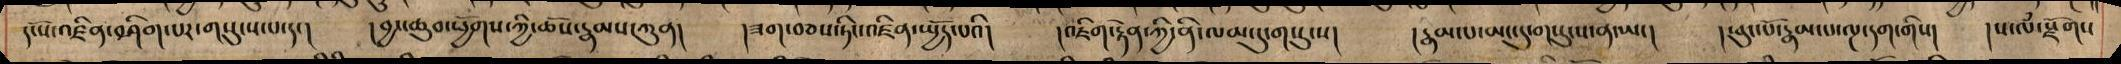དངོས་འཛིན་བཤིག་པར་གསུངས་པ་དང། །བྱང་ཆུབ་ཕྱོགས་ཀྱི་ཆོས་རྣམས་ཀུན། །ཟག་བཅས་ཏིང་འཛིན་སྤྱོད་པའི། འཇིག་རྟེན་ཀྱི་ནི་ལམ་དུ་གསུངས། །རྣམས་པ་མང་དུ་གསུངས་ན་ཡང། །ཕུང་པོ་རྣམ་པ་ལྔ་དག་གིས། ས་ལཾ་སྫོགས
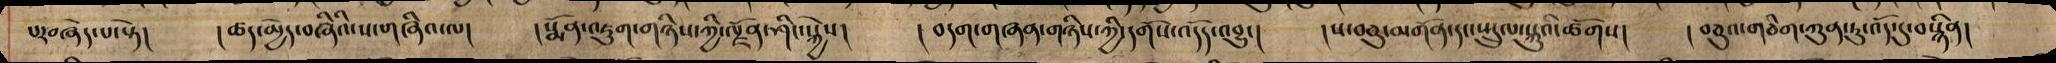པར་བཞེད་པ་སྟེ། །ཚད་མྱེད་བཞཱིའི་ས་གཞིའ་ལ། །སྨོན་འཇུག་གཉིས་ཀྱི་ལྗོན་ཤིང་སྐྱེས། །བདག་གཞན་གཉིས་ཀྱི་དགོས་འདོད་འབྱུང། ས་བཅུ་མགོན་དང་སྤྲུལ་སྐུའི་ཚོགས། བཅུའ་གཅིག་ཀུན་ཏུ་འོད་དུ་བསྙིལ།
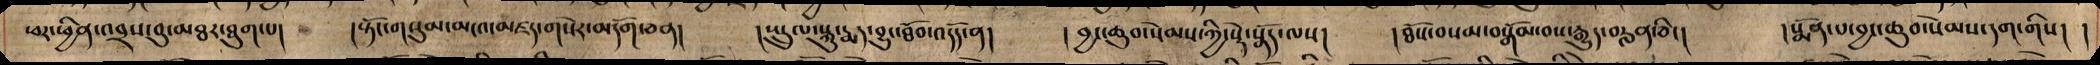ཕར་ཕྱིན་འབྲས་བུ་མཐར་ཐུག་པ། །སྟོང་གསུམ་མངའ་མཛད་གསེར་མདོག་ཅན། །སྤྲུལ་སྐུ་རྨད་དུ་བྱུང་ཐོབ་འདོད་ན། །བྱང་ཆུབ་སེམས་ཀྱི་སྡེ་སྣོད་ལས། །ཐོས་བསམ་བསྒོམ་བས་རྒྱུད་བརླན་ཅིང། །སྨོན་པ་བྱང་ཆུབ་སེམས་དག་གིས། །
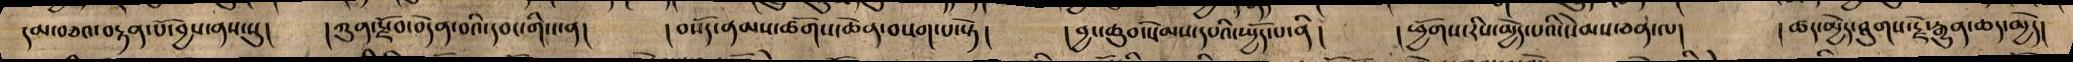དམ་བཅའ་བརྟན་པོ་བྱས་ནས་སུ། །ཀུན་སྫོབ་བདེན་བའི་དབང་གིས་ན། །བསོད་ནམས་ཚོགས་ཆེན་བསགས་པ་སྟེ། །བྱང་ཆུབ་སེམས་དཔའི་སྤྱོད་པ་ནི། །ཕྱོགས་རིས་མྱེད་པའི་སེམས་ཅན་ལ། །ཚད་མྱེད་ཐུགས་རྗེ་རྒྱུན་ཆད་མྱེད།
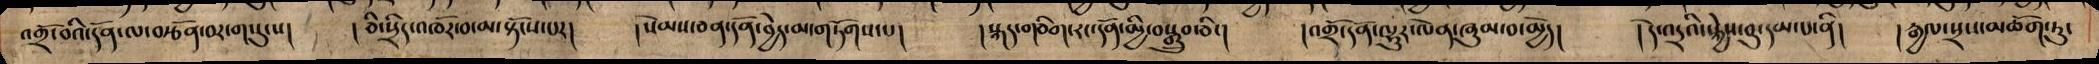འགྲོ་བའི་དོན་ལ་བརྩོན་བར་གསུངས། །ཅི་སྲིད་འཁོར་བ་མ་སྟོངས་པར། །སེམས་ཅན་དོན་བྱེད་མ་གཏོགས་པ། །སྐད་གཅིག་རང་དོན་མྱི་བསྒྲུབ་ཅིང། །འགྲོ་དོན་ལྷུར་ལེན་ཞུམ་བ་མྱེད། །དེ་འདྲའི་སྐྱེས་བུ་དམ་པ་ནི། །རྒྱལ་སྲས་མཆོག་ཏུ་
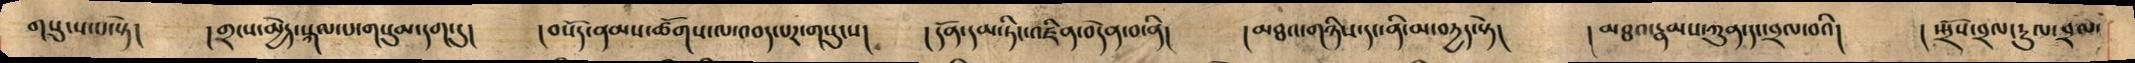གསུངས་པ་སྟེ། །གྲངས་མྱེད་སྐལ་པ་གསུམ་དག་དུ། །བསོད་ནམས་ཚོགས་ལ་འབད་པར་གསུངས། །དོན་དམ་ཏིང་འཛིན་བདེན་བ་ནི། །མཐའ་གཉིས་དང་ནི་མ་བརྱད་སྟེ། །མཐའ་རྣམས་ཀུན་དང་བྲལ་བའི། །སྤྲོས་བྲལ་རྡུལ་བྲལ་
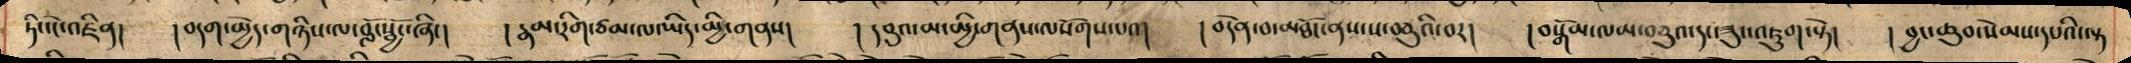ཏིང་ངེ་འཛིན། །བདག་མྱེད་གཉིས་ལ་བློ་སྦྱོང་ཞིང། །རྣམ་རིག་ཙམ་ལ་ཡིད་མྱི་གནས། །དབུའ་མ་མྱི་གནས་ལསོགས་པའ། །བདེན་བ་མཐོང་ནས་ས་བཅུའི་བར། །བསྒོམ་ལམ་བཅུའ་དང་ཟུང་འཇུག་སྟེ། །བྱང་ཆུབ་སེམས་དཔའི་ལྟ
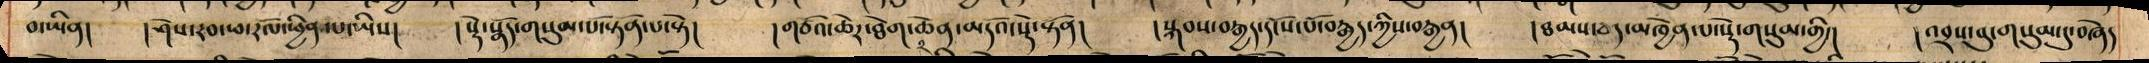བ་ཡིན། །ཤེས་རབ་ཕ་རོལ་ཕྱིན་པ་ཡིས། །སྡེ་སྣོད་གསུམ་པ་སྟོན་པ་སྟེ། །གཙོའ་ཆེར་ཐེག་ཆེན་མདོའ་སྡེ་སྟོན། །སྐབས་བརྒྱད་དངོས་པོ་བརྒྱད་ཀྱིས་བརྒྱན། །ཐམས་ཅད་མཁྱེན་པ་སྡེ་གསུམ་གྱི། །འབྲས་བུ་གསུམ་དུ་བཞེད
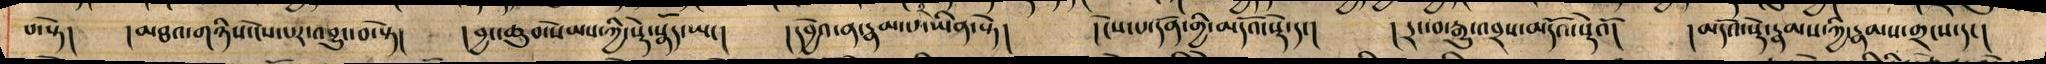པ་སྟེ། །མཐའ་གཉིས་ངེས་པར་འབྱང་བ་སྟེ། །བྱང་ཆུབ་སེམས་ཀྱི་སྡེ་སྣོད་ཡང། །དབྱེའ་ན་རྣམ་པ་ཡིན་སྟེ། །ངེས་པ་དོན་གྱི་མདོའ་སྡེ་དང། །དྲང་བ་རྒྱུ་འབྲས་མདོའ་སྡེའོ། །མདོའ་སྡེ་རྣམས་ཀྱི་རྣམས་གྲངས་དང།
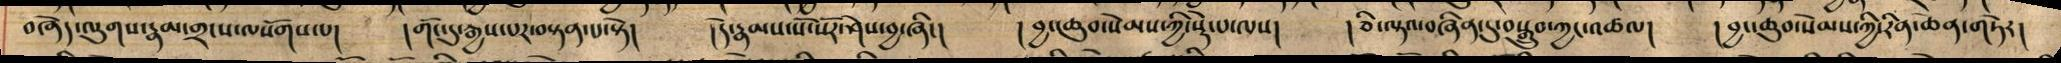བཞེད་ལུགས་རྣམ་གྲངས་ལསོགས་པ། །གོང་དུ་རྒྱས་པར་བསྟན་པ་སྟེ། །དེ་རྣམས་སོ་སོར་ཤེས་བྱ་ཞིང། །བྱང་ཆུབ་སེམས་ཀྱི་སྡེ་པ་ལས། །ཅི་ལྟའ་བཞིན་དུ་བསྒྲུབ་ཀྱང་འཚལ། །བྱང་ཆུབ་སེམས་ཀྱི་རིན་ཆེན་གཏེར།
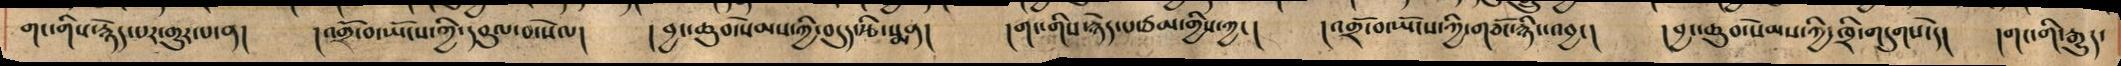གང་གིས་རྙེད་པར་གྱུར་པ་ན། །འགྲོ་བ་ཡོངས་ཀྱི་དབུལ་བ་སེལ། །བྱང་ཆུབ་སེམས་ཀྱི་བདུད་རྩི་སྨན། །གང་གིས་རྙེད་པ་ཙམ་གྱིས་ཀྱང། །འགྲོ་བ་ཡོངས་ཀྱི་གཅོང་རྙིང་འབྱང། །བྱང་ཆུབ་སེམས་ཀྱི་ཁྲི་གདུགས་དེ། །གང་གི་རྒྱུད་
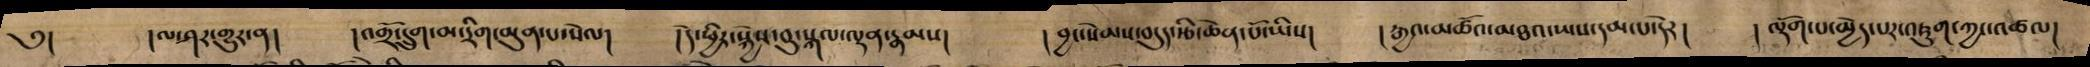༅། །ལ་ཤར་གྱུར་ན། །འགྲོ་དྲུག་མ་རིག་མུན་པ་སེལ། །དེ་ཕྱིར་སྐྱེས་བུ་སྐལ་ལྡན་རྣམས། །བྱང་སེམས་བདུད་རྩི་ཆེན་པོ་ཡིས། །རྒྱའ་མཚོའ་མཐའ་ཡས་དམ་པ་དེར། །ལྡོག་པ་མྱེད་པར་འཇུག་ཀྱང་འཚལ།
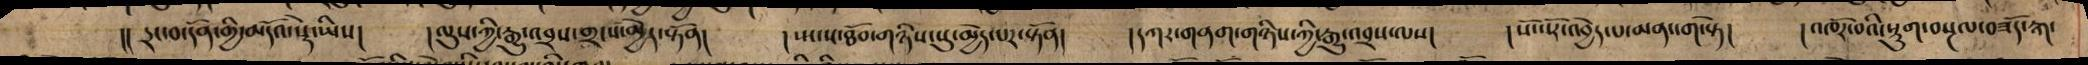།། དྲང་བ་དོན་གྱི་མདོའ་སྡེ་ཡིས། །ལུས་ཀྱི་རྒྱུ་འབྲས་གྲངས་མྱེད་སྟོན། །ཡངས་ཐོབ་གཉིས་སུ་མྱེད་པར་སྟོན། །དཀར་གནག་གཉིས་ཀྱི་རྒྱུ་འབྲས་ལས། །སོ་སོར་འབྱེད་པ་མན་ངག་སྟེ། །འཁོར་བའི་སྡུག་བསྔལ་བཟོད་རྐ་
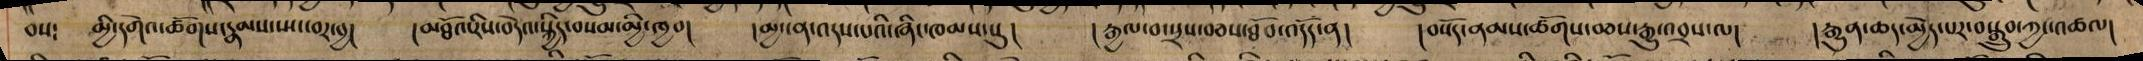བས༴ མྱི་དགེའ་ཚོགས་རྣམས་ཡང་བར་བྱ། །མཐོའ་རིས་བདེའ་སྐྱིད་བསམ་མྱི་ཁྱབ། །མྱ་ངན་འདས་པའི་ཞིང་ཁམས་སུ། །རྒྱལ་བ་སྲས་བཅས་ཐོབ་འདོད་ན། །བསོད་ནམས་ཚོགས་བཅས་རྒྱུ་འབྲས་ལ། །རྒྱུན་ཆད་མྱེད་པར་བསྒྲུབ་ཀྱང་འཚལ།
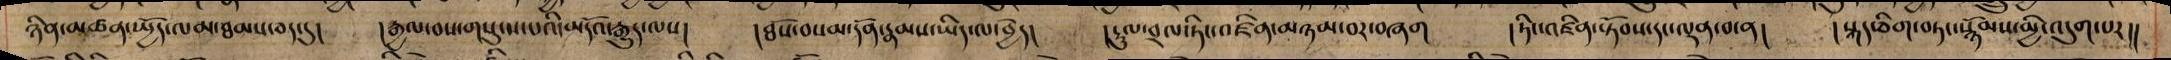ཉིན་མཚན་སྤྱོད་ལམ་ཐམས་ཅད་དུ། །རྒྱལ་བས་གསུངས་པའི་མདོའ་རྒྱུད་ལས། །ཐོས་བསམ་དོན་རྣམས་ཡིད་ལ་བྱེད། །རྡུལ་བྲལ་ཏིང་འཛིན་མཉམ་བར་བཞག །ཏིང་འཛིན་སྟོབས་དང་ལྡན་བ་ན། །སྐད་ཅིག་བཏང་སྙོམས་མྱི་འདུག་པར།།
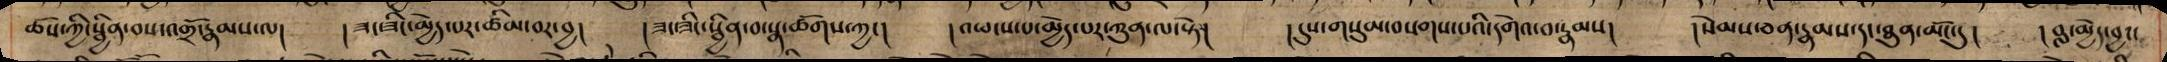ཆོས་ཀྱི་སྦྱིན་བས་འགྲོ་རྣམས་ལ། །ཟང་ཟིང་མྱེད་པར་ཚིམ་བར་བྱ། །ཟང་ཟིང་སྦྱིན་བ་སྣ་ཚོགས་ཀྱང། །འཕངས་པ་མྱེད་པར་ཀུན་ལ་སྟེ། །དུས་གསུམ་བསགས་པའི་དགེའ་བ་རྣམས། །སེམས་ཅན་རྣམས་དང་ཐུན་མོང་དུ། །བླ་མྱེད་བྱང་
